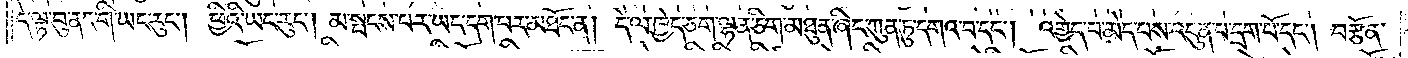དེ་ལྟ་བུ་ནང་གི་ཡང་རུང༌། ཕྱིའི་ཡང་རུང༌། མ་སྤངས་པར་ཡང་དག་པར་མཐོང་ན། དེ་ལ་ཁྱེད་ཅག་ལྷན་ཅིག་མཐུན་ཞིང་ཀུན་ཏུ་དགའ་བ་དང༌། འགྱེད་པ་མེད་པས་འདུན་པ་དྲག་པོ་དང༌། བརྩོན་
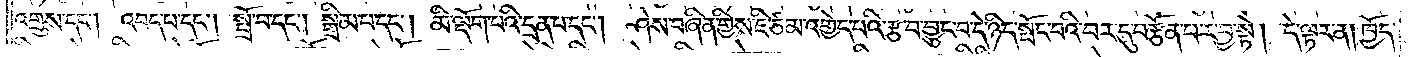འགྲུས་དང༌། འབད་པ་དང༌། སྤྲོ་བ་དང༌། སྒྲིམ་པ་དང༌། མི་ལྡོག་པའི་དྲན་པ་དང༌། ཤེས་བཞིན་གྱིས་ཇི་ཙམ་འགྱེད་པའི་རྩ་བ་བྱུང་བ་དེ་ཉིད་སྤོང་པའི་བར་དུ་བརྩོན་པར་བྱ་སྟེ། དེ་ལྟར་ན། ཁྱོད་
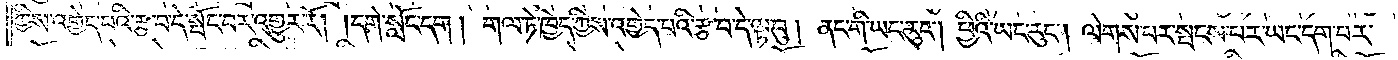ཀྱིས་འགྱེད་པའི་རྩ་བ་དེ་སྤོང་བར་འགྱུར་རོ། །དགེ་སློང་དག །གལ་ཏེ་ཁྱེད་ཀྱིས་འགྱེད་པའི་རྩ་བ་དེ་ལྟ་བུ། ནང་གི་ཡང་རུང༌། ཕྱིའི་ཡང་རུང༌། ལེགས་པར་སྤངས་པར་ཡང་དག་པར་
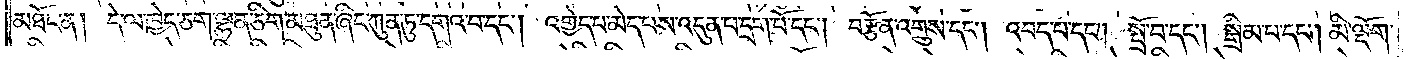མཐོང་ན། དེ་ལ་ཁྱེད་ཅག་ལྷན་ཅིག་མཐུན་ཞིང་ཀུན་ཏུ་དགའ་བ་དང༌། འགྱེད་པ་མེད་པས་འདུན་པ་དྲག་པོ་དང༌། བརྩོན་འགྲུས་དང༌། འབད་པ་དང༌། སྤྲོ་བ་དང༌། སྒྲིམ་པ་དང༌། མི་ལྡོག་
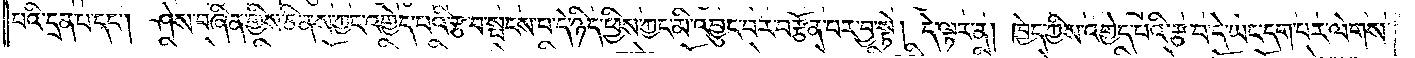པའི་དྲན་པ་དང༌། ཤེས་བཞིན་གྱིས་ཅི་ནས་ཀྱང་འགྱེད་པའི་རྩ་བ་སྤངས་པ་དེ་ཉིད་ཕྱིས་ཀྱང་མི་འབྱུང་བར་བརྩོན་པར་བྱ་སྟེ། དེ་ལྟར་ན། ཁྱེད་ཀྱིས་འགྱེད་པའི་རྩ་བ་དེ་ཡང་དག་པར་ལེགས་
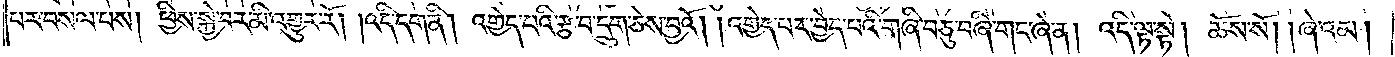པར་བསལ་པས། ཕྱིས་སྐྱེ་བར་མི་འགྱུར་རོ། །འདི་དག་ནི། འགྱེད་པའི་རྩ་བ་དྲུག་ཅེས་བྱའོ། །འགྱེད་པར་བྱེད་པའི་གཞི་བཅུ་བཞི་གང་ཞེ་ན། འདི་ལྟ་སྟེ། ཆོས་སོ། །ཞེ་འམ།
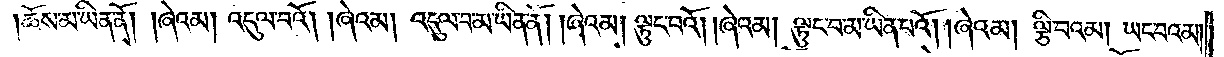ཆོས་མ་ཡིན་ནོ། །ཞེའམ། འདུལ་བའོ། །ཞེའམ། འདུལ་བ་མ་ཡིན་ནོ། །ཞེའམ། ལྟུང་བའོ། །ཞེའམ། ལྟུང་བ་མ་ཡིན་པའོ། །ཞེའམ། ལྕི་བའམ། ཡང་བའམ།
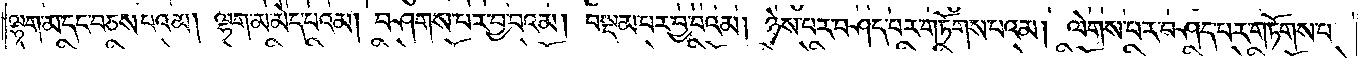ལྷག་མ་དང་བཅས་པའམ། ལྷག་མ་མེད་པའམ། བཤགས་པར་བྱ་བའམ། བསྡམ་པར་བྱ་བའམ། ཉེས་བར་བཤད་པར་གཏོགས་པའམ། ལེགས་པར་བཤད་པར་གཏོགས་པ་
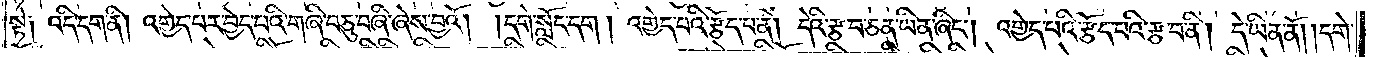སྟེ༑ འདི་དག་ནི། འགྱེད་པར་བྱེད་པའི་གཞི་བཅུ་བཞི་ཞེས་བྱའོ། །དགེ་སློང་དག །འགྱེད་པའི་རྩོད་པ་ནི། དེའི་རྩ་བ་ཅན་ཡིན་ཞིང༌། འགྱེད་པའི་རྩོད་པའི་རྩ་བ་ནི། དེ་ཡིན་ནོ། །དགེ་
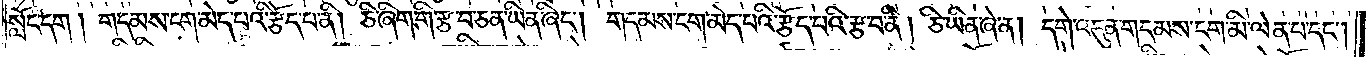སློང་དག །གདམས་ངག་མེད་པའི་རྩོད་པ་ནི། ཅི་ཞིག་གི་རྩ་བ་ཅན་ཡིན་ཞིང༌། གདམས་ངག་མེད་པའི་རྩོད་པའི་རྩ་བ་ནི། ཅི་ཡིན་ཞེ་ན། དགེ་འདུན་གདམས་ངག་མི་ལེན་པ་དང༌།
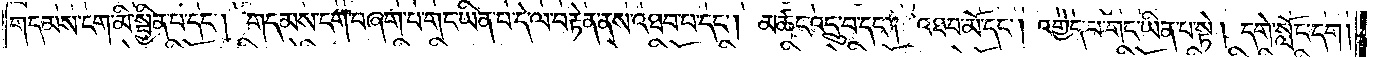གདམས་ངག་མི་སྦྱིན་པ་དང༌། གདམས་ངག་བཞག་པ་གང་ཡིན་པ་དེ་ལ་བརྟེན་ནས་འཐབ་པ་དང༌། མཚང་འདྲུ་བ་དང༌། འཐབ་མོ་དང༌། འགྱེད་པ་གང་ཡིན་པ་སྟེ། དགེ་སློང་དག།
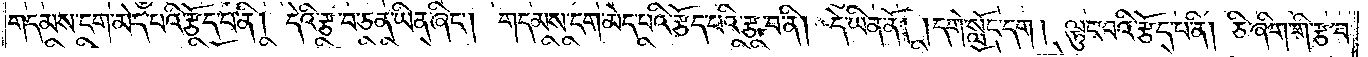གདམས་ངག་མེད་པའི་རྩོད་པ་ནི། དེའི་རྩ་བ་ཅན་ཡིན་ཞིང༌། གདམས་ངག་མེད་པའི་རྩོད་པའི་རྩ་བ་ནི། དེ་ཡིན་ནོ། །དགེ་སློང་དག །ལྟུང་བའི་རྩོད་པ་ནི། ཅི་ཞིག་གི་རྩ་བ་
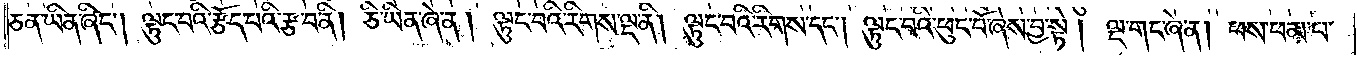ཅན་ཡིན་ཞིང༌། ལྟུང་བའི་རྩོད་པའི་རྩ་བ་ནི། ཅི་ཡིན་ཞེ་ན། ལྟུང་བའི་རིགས་ལྔ་ནི། ལྟུང་བའི་རིགས་དང༌། ལྟུང་བའི་ཕུང་པོ་ཞེས་བྱ་སྟེ། ལྔ་གང་ཞེ་ན། ཕས་ཕམ་པ་
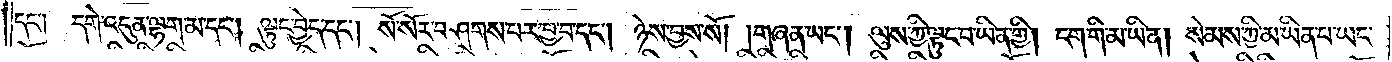དང༌། དགེ་འདུན་ལྷག་མ་དང༌། ལྟུང་བྱེད་དང༌། སོ་སོར་བཤགས་པར་བྱ་བ་དང༌། ཉེས་བྱས་སོ། །གཞན་ཡང༌། ལུས་ཀྱི་ལྟུང་བ་ཡིན་གྱི། ངག་གི་མ་ཡིན། སེམས་ཀྱི་མ་ཡིན་པ་ཡང་
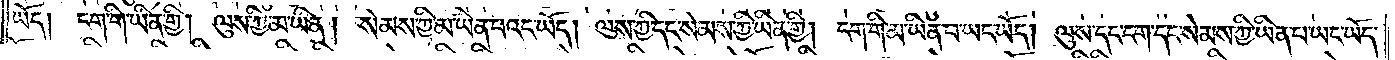ཡོད། ངག་གི་ཡིན་གྱི། ལུས་ཀྱི་མ་ཡིན། སེམས་ཀྱི་མ་ཡིན་པའང་ཡོད། ལུས་ཀྱི་དང་སེམས་ཀྱི་ཡིན་གྱི། ངག་གི་མ་ཡིན་པ་ཡང་ཡོད། ལུས་དང་ངག་དང་སེམས་ཀྱི་ཡིན་པ་ཡང་ཡོད་
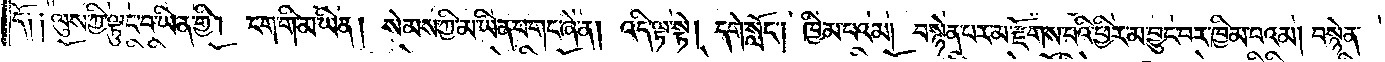དོ༑ ༑ལུས་ཀྱི་ལྟུང་བ་ཡིན་གྱི། ངག་གི་མ་ཡིན། སེམས་ཀྱི་མ་ཡིན་པ་གང་ཞེ་ན། འདི་ལྟ་སྟེ། དགེ་སློང༌། ཁྱིམ་པའམ། བསྙེན་པར་མ་རྫོགས་པའི་ཕྱིར་མ་བྱུང་བར་ཁྱིམ་པའམ། བསྙེན་
